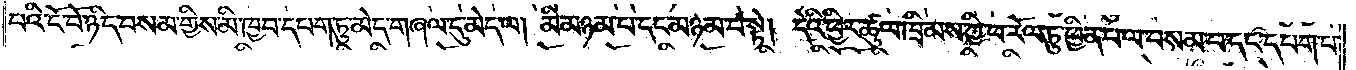པའི་ངོ་བོ་ཉིད་བསམ་གྱིས་མི་ཁྱབ་དཔག་ཏུ་མེད་གཞལ་དུ་མེད་ལ། མི་མཉམ་པ་དང་མཉམ་པ་སྟེ། དེའི་ཕྱིར་ཚུལ་ཁྲིམས་ཀྱི་ཕ་རོལ་ཏུ་ཕྱིན་པ་ལ་བསམ་པ་དང་དཔག་པ་
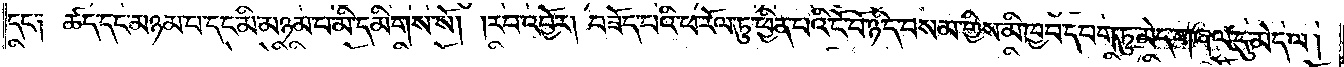དང༌༑ ཚད་དང་མཉམ་པ་དང་མི་མཉམ་པ་མི་དམིགས་སོ། །རབ་འབྱོར། བཟོད་པའི་ཕ་རོལ་ཏུ་ཕྱིན་པའི་ངོ་བོ་ཉིད་བསམ་གྱིས་མི་ཁྱབ་དཔག་ཏུ་མེད་གཞལ་དུ་མེད་ལ།
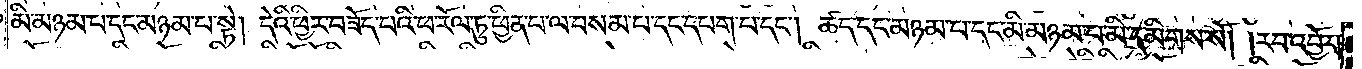མི་མཉམ་པ་དང་མཉམ་པ་སྟེ། དེའི་ཕྱིར་བཟོད་པའི་ཕ་རོལ་ཏུ་ཕྱིན་པ་ལ་བསམ་པ་དང་དཔག་པ་དང༌། ཚད་དང་མཉམ་པ་དང་མི་མཉམ་པ་མི་དམིགས་སོ། །རབ་འབྱོར།
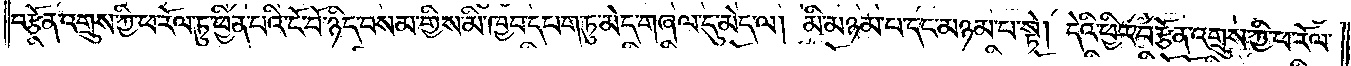བརྩོན་འགྲུས་ཀྱི་ཕ་རོལ་ཏུ་ཕྱིན་པའི་ངོ་བོ་ཉིད་བསམ་གྱིས་མི་ཁྱབ་དཔག་ཏུ་མེད་གཞལ་དུ་མེད་ལ། མི་མཉམ་པ་དང་མཉམ་པ་སྟེ། དེའི་ཕྱིར་བརྩོན་འགྲུས་ཀྱི་ཕ་རོལ་
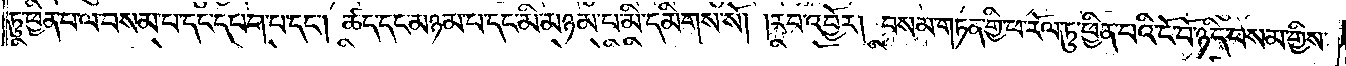ཏུ་ཕྱིན་པ་ལ་བསམ་པ་དང་དཔག་པ་དང༌། ཚད་དང་མཉམ་པ་དང་མི་མཉམ་པ་མི་དམིགས་སོ། །རབ་འབྱོར། བསམ་གཏན་གྱི་ཕ་རོལ་ཏུ་ཕྱིན་པའི་ངོ་བོ་ཉིད་བསམ་གྱིས་
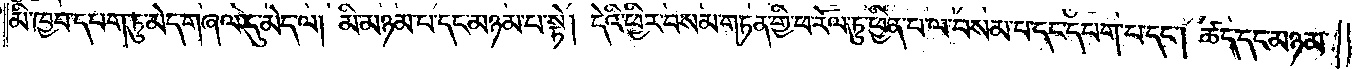མི་ཁྱབ་དཔག་ཏུ་མེད་གཞལ་དུ་མེད་ལ། མི་མཉམ་པ་དང་མཉམ་པ་སྟེ། དེའི་ཕྱིར་བསམ་གཏན་གྱི་ཕ་རོལ་ཏུ་ཕྱིན་པ་ལ་བསམ་པ་དང་དཔག་པ་དང༌། ཚད་དང་མཉམ་
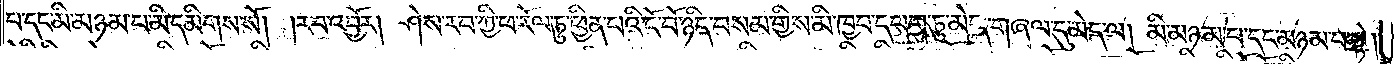པ་དང་མི་མཉམ་པ་མི་དམིགས་སོ། རབ་འབྱོར། ཤེས་རབ་ཀྱི་ཕ་རོལ་ཏུ་ཕྱིན་པའི་ངོ་བོ་ཉིད་བསམ་གྱིས་མི་ཁྱབ་དཔག་ཏུ་མེད་གཞལ་དུ་མེད་ལ། མི་མཉམ་པ་དང་མཉམ་པ་སྟེ།
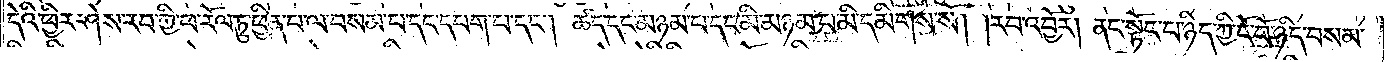དེའི་ཕྱིར་ཤེས་རབ་ཀྱི་ཕ་རོལ་ཏུ་ཕྱིན་པ་ལ་བསམ་པ་དང་དཔག་པ་དང༌། ཚད་དང་མཉམ་པ་དང་མི་མཉམ་པ་མི་དམིགས་སོ།རབ་འབྱོར། ནང་སྟོང་པ་ཉིད་ཀྱི་ངོ་བོ་ཉིད་བསམ་
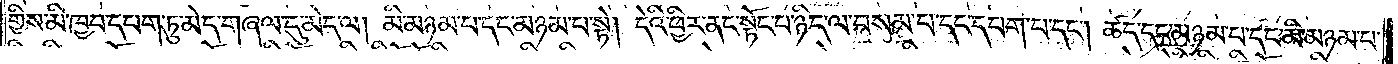གྱིས་མི་ཁྱབ་དཔག་ཏུ་མེད་གཞལ་དུ་མེད་ལ། མི་མཉམ་པ་དང་མཉམ་པ་སྟེ། དེའི་ཕྱིར་ནང་སྟོང་པ་ཉིད་ལ་བསམ་པ་དང་དཔག་པ་དང༌། ཚད་དང་མཉམ་པ་དང་མི་མཉམ་པ་
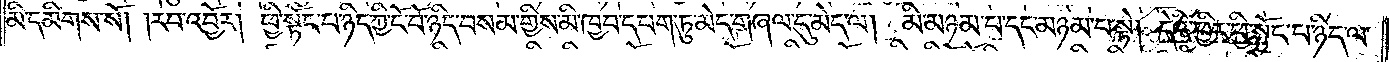མི་དམིགས་སོ། །རབ་འབྱོར། ཕྱི་སྟོང་པ་ཉིད་ཀྱི་ངོ་བོ་ཉིད་བསམ་གྱིས་མི་ཁྱབ་དཔག་ཏུ་མེད་གཞལ་དུ་མེད་ལ། མི་མཉམ་པ་དང་མཉམ་པ་སྟེ། དེའི་ཕྱིར་ཕྱི་སྟོང་པ་ཉིད་ལ་
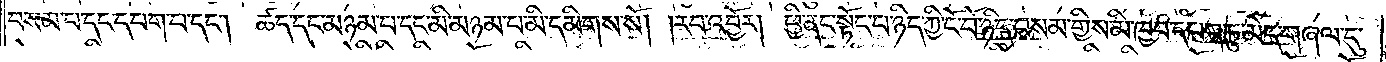བསམ་པ་དང་དཔག་པ་དང༌། ཚད་དང་མཉམ་པ་དང་མི་མཉམ་པ་མི་དམིགས་སོ། །རབ་འབྱོར། ཕྱི་ནང་སྟོང་པ་ཉིད་ཀྱི་ངོ་བོ་ཉིད་བསམ་གྱིས་མི་ཁྱབ་དཔག་ཏུ་མེད་གཞལ་དུ་
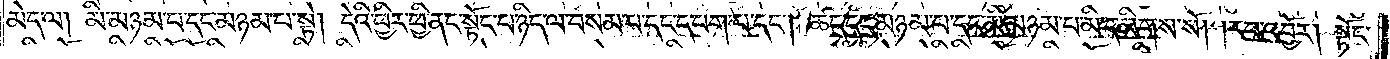མེད་ལ། མི་མཉམ་པ་དང་མཉམ་པ་སྟེ། དེའི་ཕྱིར་ཕྱི་ནང་སྟོང་པ་ཉིད་ལ་བསམ་པ་དང་དཔག་པ་དང༌། ཚད་དང་མཉམ་པ་དང་མི་མཉམ་པ་མི་དམིགས་སོ། །རབ་འབྱོར། སྟོང་
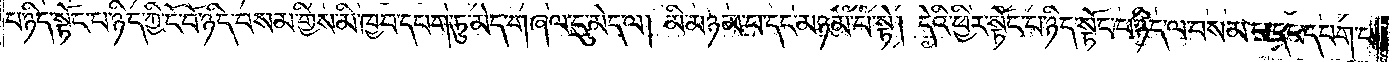པ་ཉིད་སྟོང་པ་ཉིད་ཀྱི་ངོ་བོ་ཉིད་བསམ་གྱིས་མི་ཁྱབ་དཔག་ཏུ་མེད་གཞལ་དུ་མེད་ལ། མི་མཉམ་པ་དང་མཉམ་པ་སྟེ། དེའི་ཕྱིར་སྟོང་པ་ཉིད་སྟོང་པ་ཉིད་ལ་བསམ་པ་དང་དཔག་པ་
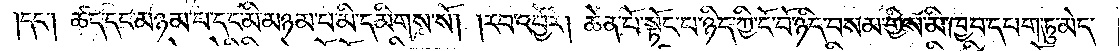དང༌། ཚད་དང་མཉམ་པ་དང་མི་མཉམ་པ་མི་དམིགས་སོ། །རབ་འབྱོར། ཆེན་པོ་སྟོང་པ་ཉིད་ཀྱི་ངོ་བོ་ཉིད་བསམ་གྱིས་མི་ཁྱབ་དཔག་ཏུ་མེད་
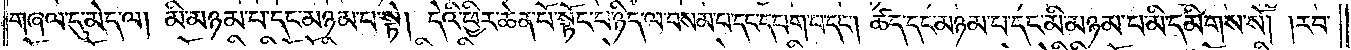གཞལ་དུ་མེད་ལ། མི་མཉམ་པ་དང་མཉམ་པ་སྟེ། དེའི་ཕྱིར་ཆེན་པོ་སྟོང་པ་ཉིད་ལ་བསམ་པ་དང་དཔག་པ་དང༌། ཚད་དང་མཉམ་པ་དང་མི་མཉམ་པ་མི་དམིགས་སོ། །རབ་
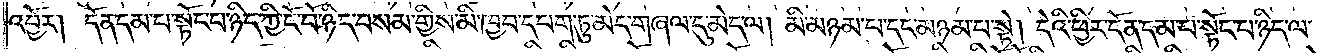འབྱོར། དོན་དམ་པ་སྟོང་པ་ཉིད་ཀྱི་ངོ་བོ་ཉིད་བསམ་གྱིས་མི་ཁྱབ་དཔག་ཏུ་མེད་གཞལ་དུ་མེད་ལ། མི་མཉམ་པ་དང་མཉམ་པ་སྟེ། དེའི་ཕྱིར་དོན་དམ་པ་སྟོང་པ་ཉིད་ལ་
